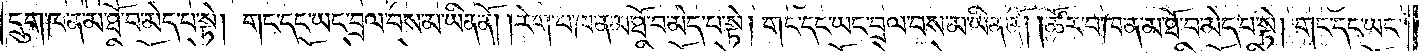དྲུག་ཁ་ན་མ་ཐོ་བ་མེད་པ་སྟེ། གང་དང་ཡང་བྲལ་བས་མ་ཡིན་ནོ། །རེག་པ་ཁ་ན་མ་ཐོ་བ་མེད་པ་སྟེ། གང་དང་ཡང་བྲལ་བས་མ་ཡིན་ནོ། །ཚོར་བ་ཁ་ན་མ་ཐོ་བ་མེད་པ་སྟེ། གང་དང་ཡང་
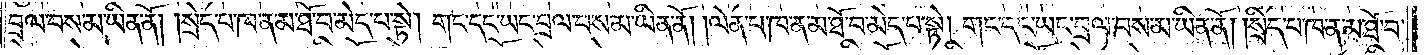བྲལ་བས་མ་ཡིན་ནོ། །སྲེད་པ་ཁ་ན་མ་ཐོ་བ་མེད་པ་སྟེ། གང་དང་ཡང་བྲལ་བས་མ་ཡིན་ནོ། །ལེན་པ་ཁ་ན་མ་ཐོ་བ་མེད་པ་སྟེ། གང་དང་ཡང་བྲལ་བས་མ་ཡིན་ནོ། །སྲིད་པ་ཁ་ན་མ་ཐོ་བ་
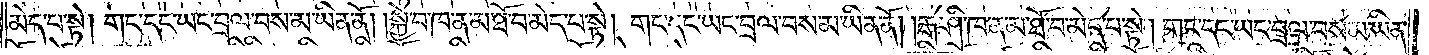མེད་པ་སྟེ། གང་དང་ཡང་བྲལ་བས་མ་ཡིན་ནོ། །སྐྱེ་བ་ཁ་ན་མ་ཐོ་བ་མེད་པ་སྟེ། གང་དང་ཡང་བྲལ་བས་མ་ཡིན་ནོ། །རྒ་ཤི་ཁ་ན་མ་ཐོ་བ་མེད་པ་སྟེ། གང་དང་ཡང་བྲལ་བས་མ་ཡིན་
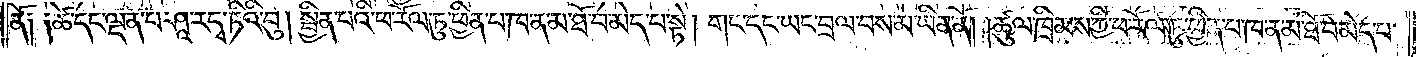ནོ༑ ༑ཚེ་དང་ལྡན་པ་ཤཱ་ར་དྭ་ཏིའི་བུ། སྦྱིན་པའི་ཕ་རོལ་ཏུ་ཕྱིན་པ་ཁ་ན་མ་ཐོ་བ་མེད་པ་སྟེ། གང་དང་ཡང་བྲལ་བས་མ་ཡིན་ནོ། །ཚུལ་ཁྲིམས་ཀྱི་ཕ་རོལ་ཏུ་ཕྱིན་པ་ཁ་ན་མ་ཐོ་བ་མེད་པ་
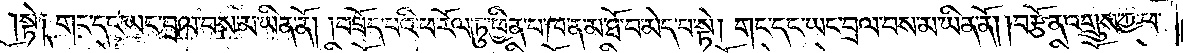སྟེ༑ གང་དང་ཡང་བྲལ་བས་མ་ཡིན་ནོ། །བཟོད་པའི་ཕ་རོལ་ཏུ་ཕྱིན་པ་ཁ་ན་མ་ཐོ་བ་མེད་པ་སྟེ། གང་དང་ཡང་བྲལ་བས་མ་ཡིན་ནོ། །བརྩོན་འགྲུས་ཀྱི་ཕ་
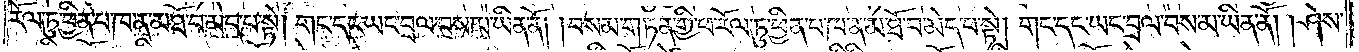རོལ་ཏུ་ཕྱིན་པ་ཁ་ན་མ་ཐོ་བ་མེད་པ་སྟེ། གང་དང་ཡང་བྲལ་བས་མ་ཡིན་ནོ། །བསམ་གཏན་གྱི་ཕ་རོལ་ཏུ་ཕྱིན་པ་ཁ་ན་མ་ཐོ་བ་མེད་པ་སྟེ། གང་དང་ཡང་བྲལ་བས་མ་ཡིན་ནོ། །ཤེས་
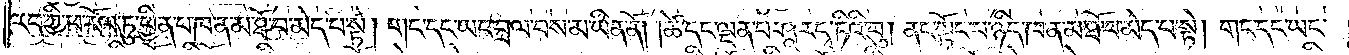རབ་ཀྱི་ཕ་རོལ་ཏུ་ཕྱིན་པ་ཁ་ན་མ་ཐོ་བ་མེད་པ་སྟེ། གང་དང་ཡང་བྲལ་བས་མ་ཡིན་ནོ། །ཚེ་དང་ལྡན་པ་ཤཱ་ར་དྭ་ཏིའི་བུ། ནང་སྟོང་པ་ཉིད་ཁ་ན་མ་ཐོ་བ་མེད་པ་སྟེ། གང་དང་ཡང་
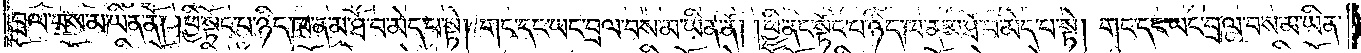བྲལ་བས་མ་ཡིན་ནོ། །ཕྱི་སྟོང་པ་ཉིད་ཁ་ན་མ་ཐོ་བ་མེད་པ་སྟེ། གང་དང་ཡང་བྲལ་བས་མ་ཡིན་ནོ། །ཕྱི་ནང་སྟོང་པ་ཉིད་ཁ་ན་མ་ཐོ་བ་མེད་པ་སྟེ། གང་དང་ཡང་བྲལ་བས་མ་ཡིན་
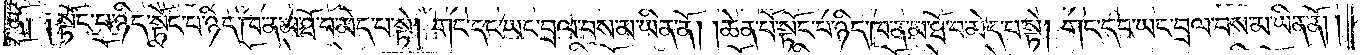ནོ༑ ༑སྟོང་པ་ཉིད་སྟོང་པ་ཉིད་ཁ་ན་མ་ཐོ་བ་མེད་པ་སྟེ། གང་དང་ཡང་བྲལ་བས་མ་ཡིན་ནོ། །ཆེན་པོ་སྟོང་པ་ཉིད་ཁ་ན་མ་ཐོ་བ་མེད་པ་སྟེ། གང་དང་ཡང་བྲལ་བས་མ་ཡིན་ནོ། །
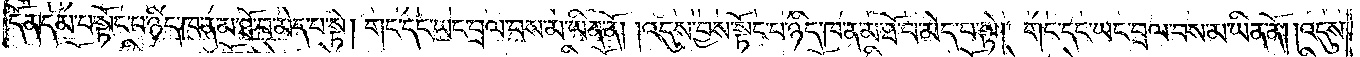དོན་དམ་པ་སྟེ་སྟོང་པ་ཉིད་ཁ་ན་མ་ཐོ་བ་མེད་པ་སྟེ། གང་དང་ཡང་བྲལ་བས་མ་ཡིན་ནོ། །འདུས་བྱས་སྟོང་པ་ཉིད་ཁ་ན་མ་ཐོ་བ་མེད་པ་སྟེ། གང་དང་ཡང་བྲལ་བས་མ་ཡིན་ནོ། །འདུས་
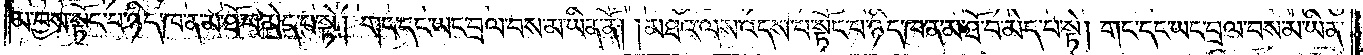མ་བྱས་སྟོང་པ་ཉིད་ཁ་ན་མ་ཐོ་བ་མེད་པ་སྟེ། གང་དང་ཡང་བྲལ་བས་མ་ཡིན་ནོ། །མཐའ་ལས་འདས་པ་སྟོང་པ་ཉིད་ཁ་ན་མ་ཐོ་བ་མེད་པ་སྟེ། གང་དང་ཡང་བྲལ་བས་མ་ཡིན་
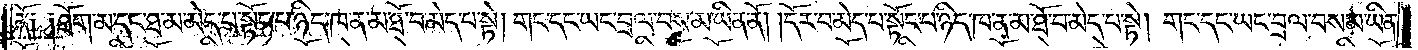ནོ། །ཐོག་མ་དང་ཐ་མ་མེད་པ་སྟོང་པ་ཉིད་ཁ་ན་མ་ཐོ་བ་མེད་པ་སྟེ། གང་དང་ཡང་བྲལ་བས་མ་ཡིན་ནོ། །དོར་བ་མེད་པ་སྟོང་པ་ཉིད་ཁ་ན་མ་ཐོ་བ་མེད་པ་སྟེ། གང་དང་ཡང་བྲལ་བས་མ་ཡིན་
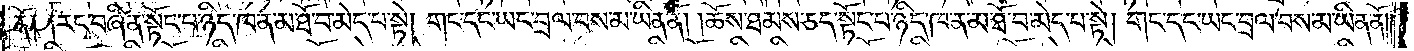ནོ༑ ༑རང་བཞིན་སྟོང་པ་ཉིད་ཁ་ན་མ་ཐོ་བ་མེད་པ་སྟེ། གང་དང་ཡང་བྲལ་བས་མ་ཡིན་ནོ། །ཆོས་ཐམས་ཅད་སྟོང་པ་ཉིད་ཁ་ན་མ་ཐོ་བ་མེད་པ་སྟེ། གང་དང་ཡང་བྲལ་བས་མ་ཡིན་ནོ། །
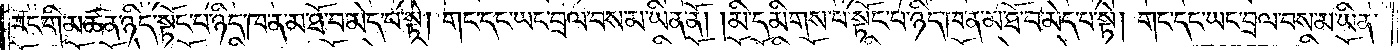རང་གི་མཚན་ཉིད་སྟོང་པ་ཉིད་ཁ་ན་མ་ཐོ་བ་མེད་པ་སྟེ། གང་དང་ཡང་བྲལ་བས་མ་ཡིན་ནོ། །མི་དམིགས་པ་སྟོང་པ་ཉིད་ཁ་ན་མ་ཐོ་བ་མེད་པ་སྟེ། གང་དང་ཡང་བྲལ་བས་མ་ཡིན་
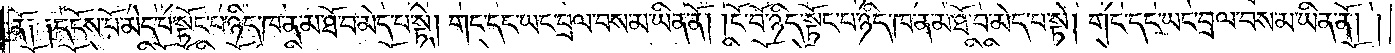ནོ༑ ༑དངོས་པོ་མེད་པ་སྟོང་པ་ཉིད་ཁ་ན་མ་ཐོ་བ་མེད་པ་སྟེ། གང་དང་ཡང་བྲལ་བས་མ་ཡིན་ནོ། །ངོ་བོ་ཉིད་སྟོང་པ་ཉིད་ཁ་ན་མ་ཐོ་བ་མེད་པ་སྟེ། གང་དང་ཡང་བྲལ་བས་མ་ཡིན་ནོ། །
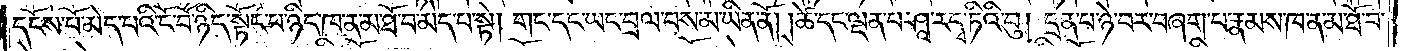དངོས་པོ་མེད་པའི་ངོ་བོ་ཉིད་སྟོང་པ་ཉིད་ཁ་ན་མ་ཐོ་བ་མེད་པ་སྟེ། གང་དང་ཡང་བྲལ་བས་མ་ཡིན་ནོ། །ཚེ་དང་ལྡན་པ་ཤཱ་ར་དྭ་ཏིའི་བུ། དྲན་པ་ཉེ་བར་བཞག་པ་རྣམས་ཁ་ན་མ་ཐོ་བ་
